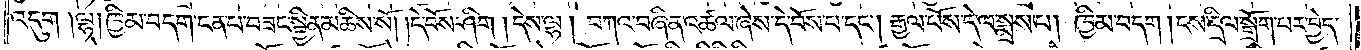འདུག །ལྷ། ཁྱིམ་བདག་ངན་པ་བཟང་སྦྱིན་མཆིས་སོ། །དེ་བོས་ཤིག །དེས་ལྷ། བཀའ་བཞིན་འཚལ་ཞེས་དེ་བོས་པ་དང༌། རྒྱལ་པོས་དེ་ལ་སྨྲས་པ། ཁྱིམ་བདག །ངས་དྲིལ་སྒྲོག་པར་བྱེད་
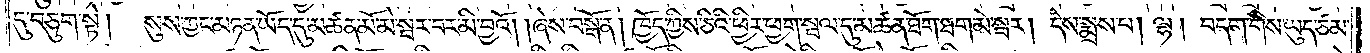དུ་བཅུག་སྟེ། སུས་ཀྱང་མཉན་ཡོད་དུ་མཚན་མོ་མེ་སྦར་བར་མི་བྱའོ། །ཞེས་བསྒོ་ན། ཁྱོད་ཀྱིས་ཅིའི་ཕྱིར་ཕྱག་སྦལ་དུ་མཚན་ཐོག་ཐག་མེ་སྦར། དེས་སྨྲས་པ། ལྷ། བདག་གིས་ཡུད་ཙམ་
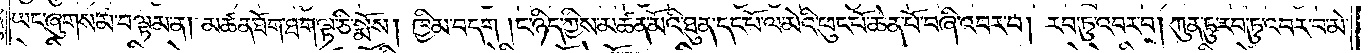ཡང་ཞུགས་མ་བལྟམ་ན། མཚན་ཐོག་ཐག་ལྟ་ཅི་སྨོས། ཁྱིམ་བདག །ང་ཉིད་ཀྱིས་མཚན་མོའི་ཐུན་དང་པོ་ལ་མེའི་ཕུང་པོ་ཆེན་པོ་བཞི་འབར་བ། རབ་ཏུ་འབར་བ། ཀུན་ཏུ་རབ་ཏུ་འབར་བ་མེ་
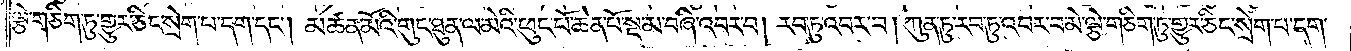ལྕེ་གཅིག་ཏུ་གྱུར་ཅིང་སྲེག་པ་དག་དང༌། མཚན་མོའི་གུང་ཐུན་ལ་མེའི་ཕུང་པོ་ཆེན་པོ་སྔ་མ་བཞི་འབར་བ། རབ་ཏུ་འབར་བ། ཀུན་ཏུ་རབ་ཏུ་འབར་བ་མེ་ལྕེ་གཅིག་ཏུ་གྱུར་ཅིང་སྲེག་པ་དག་
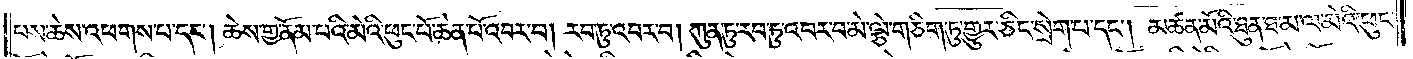པས་ཆེས་འཕགས་པ་དང༌། ཆེས་གྱ་ནོམ་པའི་མེའི་ཕུང་པོ་ཆེན་པོ་འབར་བ། རབ་ཏུ་འབར་བ། ཀུན་ཏུ་རབ་ཏུ་འབར་བ་མེ་ལྕེ་གཅིག་ཏུ་གྱུར་ཅིང་སྲེག་པ་དང༌། མཚན་མོའི་ཐུན་ཐ་མ་ལ་མེའི་ཕུང་
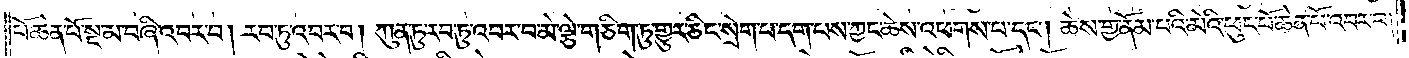པོ་ཆེན་པོ་སྔ་མ་བཞི་འབར་བ། རབ་ཏུ་འབར་བ། ཀུན་ཏུ་རབ་ཏུ་འབར་བ་མེ་ལྕེ་གཅིག་ཏུ་གྱུར་ཅིང་སྲེག་པ་དག་པས་ཀྱང་ཆེས་འཕགས་པ་དང༌། ཆེས་གྱ་ནོམ་པའི་མེའི་ཕུང་པོ་ཆེན་པོ་འབར་བ།
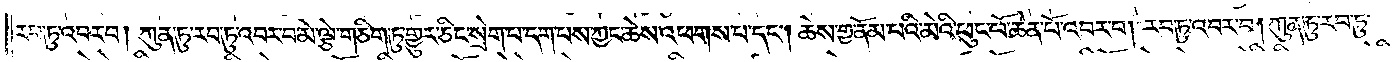རབ་ཏུ་འབར་བ། ཀུན་ཏུ་རབ་ཏུ་འབར་བ་མེ་ལྕེ་གཅིག་ཏུ་གྱུར་ཅིང་སྲེག་པ་དག་པས་ཀྱང་ཆེས་འཕགས་པ་དང༌། ཆེས་གྱ་ནོམ་པའི་མེའི་ཕུང་པོ་ཆེན་པོ་འབར་བ། རབ་ཏུ་འབར་བ། ཀུན་ཏུ་རབ་ཏུ་
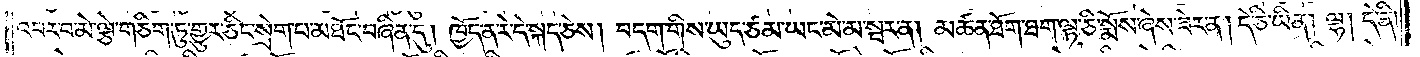འབར་བ་མེ་ལྕེ་གཅིག་ཏུ་གྱུར་ཅིང་སྲེག་པ་མཐོང་བཞིན་དུ། ཁྱོད་ན་རེ་དེ་སྐད་ཅེས། བདག་གིས་ཡུད་ཙམ་ཡང་མེ་མ་སྦར་ན། མཚན་ཐོག་ཐག་ལྟ་ཅི་སྨོས་ཞེས་ཟེར་ན། དེ་ཅི་ཡིན། ལྷ། དེ་ནི།
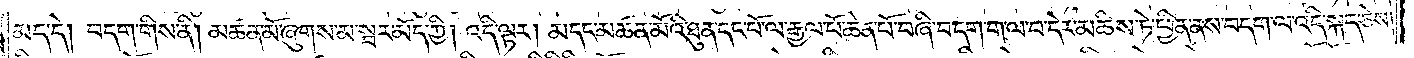མད་དེ། བདག་གིས་ནི། མཚན་མོ་ཞུགས་མ་སྦར་མོད་ཀྱི། འདི་ལྟར། མདང་མཚན་མོའི་ཐུན་དང་པོ་ལ་རྒྱལ་པོ་ཆེན་པོ་བཞི་བདག་ག་ལ་བ་དེར་མཆིས་ཏེ་ཕྱིན་ནས་བདག་ལ་འདི་སྐད་ཅེས།
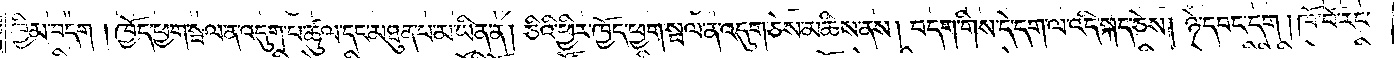ཁྱིམ་བདག །ཁྱོད་ཕྱག་སྦལ་ན་འདུག་པ་ཚུལ་དང་མཐུན་པ་མ་ཡིན་ནོ་།ཅིའི་ཕྱིར་ཁྱོད་ཕྱག་སྦལ་ན་འདུག་ཅེས་མཆིས་ནས། བདག་གིས་དེ་དག་ལ་འདི་སྐད་ཅེས། ཉེ་དབང་དག །ཁོ་བོ་རང་
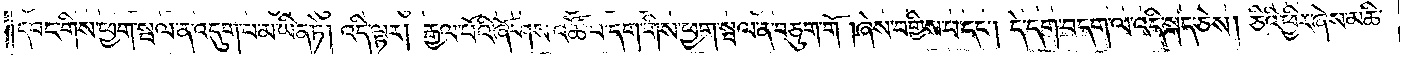དབང་གིས་ཕྱག་སྦལ་ན་འདུག་པ་མ་ཡིན་ཏེ། འདི་ལྟར། རྒྱལ་པོའི་ཞོ་ཤས་འཚོ་བ་དག་གིས་ཕྱག་སྦལ་ན་བཅུག་གོ །ཞེས་བགྱིས་པ་དང༌། དེ་དག་བདག་ལ་འདི་སྐད་ཅེས། ཅིའི་ཕྱིར་ཞེས་མཆི་
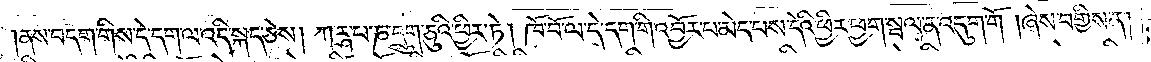ནས་བདག་གིས་དེ་དག་ལ་འདི་སྐད་ཅེས། ཀཪྴ་པ་ཎ་དྲུག་ཅུའི་ཕྱིར་ཏེ། ཁོ་བོ་ལ་དེ་དག་གི་འབྱོར་པ་མེད་པས་དེའི་ཕྱིར་ཕྱག་སྦལ་ན་འདུག་གོ །ཞེས་བགྱིས་ན།
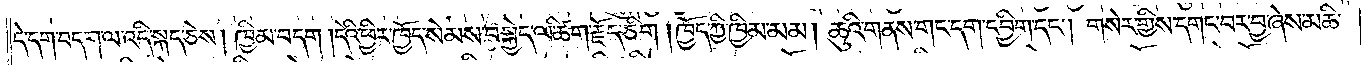དེ་དག་བདག་ལ་འདི་སྐད་ཅེས། ཁྱིམ་བདག །དེའི་ཕྱིར་ཁྱོད་སེམས་བསྐྱེད་ལ་ཚིག་རྗོད་ཅིག །ཁྱོད་ཀྱི་ཁྱིམ་མམ། ཆུའི་གནས་གང་དག་དབྱིག་དང༌། གསེར་གྱིས་དགང་བར་བྱ་ཞེས་མཆི་
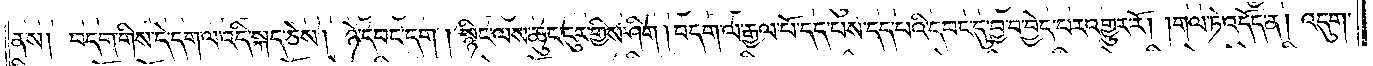ནས། བདག་གིས་དེ་དག་ལ་འདི་སྐད་ཅེས། ཉེ་དབང་དག །སྙིང་ལས་ཆུང་ངུར་གྱིས་ཤིག །བདག་ལ་རྒྱལ་པོ་དད་པས་དད་པའི་དབང་དུ་བྱ་བ་བྱེད་པར་འགྱུར་རོ། །གལ་ཏེ་འདོད་ན། འདུག་
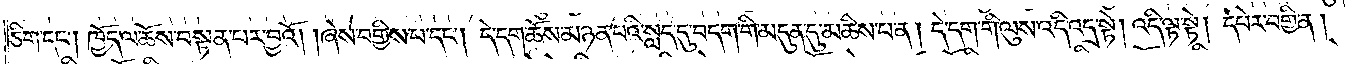ཅིག་དང༌། ཁྱོད་ལ་ཆོས་བསྟན་པར་བྱའོ། །ཞེས་བགྱིས་པ་དང༌། དེ་དག་ཆོས་མཉན་པའི་སླད་དུ་བདག་གི་མདུན་དུ་མཆིས་པ་ན། དེ་དག་གི་ལུས་འདི་འདྲ་སྟེ། འདི་ལྟ་སྟེ། དཔེར་བགྱི་ན།
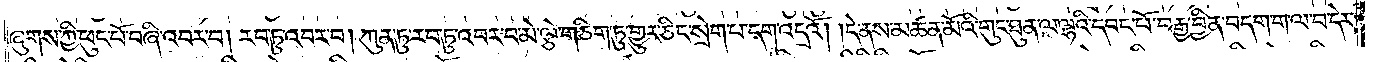ཞུགས་ཀྱི་ཕུང་པོ་བཞི་འབར་བ། རབ་ཏུ་འབར་བ། ཀུན་ཏུ་རབ་ཏུ་འབར་བ་མེ་ལྕེ་གཅིག་ཏུ་གྱུར་ཅིང་སྲེག་པ་དག་འདྲའོ། །དེ་ནས་མཚན་མོའི་གུང་ཐུན་ལ་ལྷའི་དབང་པོ་བརྒྱ་བྱིན་བདག་ག་ལ་བ་དེར་
